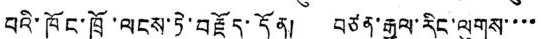བའི་ཁོང་ཁྲོ་ལངས་ཏེ་བརྗོད་དོན། བཙན་རྒྱལ་རིང་ལུགས་་་་
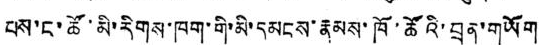པས་ང་ཚོ་མི་རིགས་ཁག་གི་མི་དམངས་རྣམས་ཁོ་ཚོའི་བྲན་གཡོག
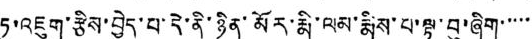ཏུ་འཇུག་རྩིས་བྱེད་པ་དེ་ནི་ཉིན་མོར་རྨི་ལམ་རྨིས་པ་ལྟ་བུ་ཞིག་་་་་
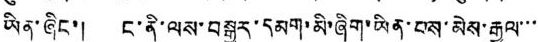ཡིན་ཞིང་། ང་ནི་ལས་བསྒྱུར་དམག་མི་ཞིག་ཡིན་པས་མེས་རྒྱལ་་་
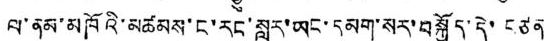ལ་ནམ་མཁོའི་མཚམས་ང་རང་སླར་ཡང་དམག་སར་བསྐྱོད་དེ་བཙན
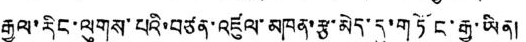རྒྱལ་རིང་ལུགས་པའི་བཙན་འཛུལ་མཁན་རྩ་མེད་དུ་གཏོང་རྒྱུ་ཡིན།
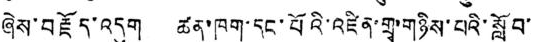ཞེས་བརྗོད་འདུག ཚན་ཁག་དང་པོའི་འཛིན་གྲྭ་གཉིས་པའི་སློབ་
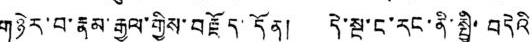གཉེར་བ་རྣམ་རྒྱལ་གྱིས་བརྗོད་དོན། དེ་སྔ་ང་རང་ནི་སྤྱི་བདེའི
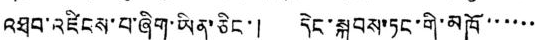འཐབ་འཛིངས་པ་ཞིག་ཡིན་ཞིང་། དེང་སྐབས་ཏང་གི་མཁོ་་་་་་
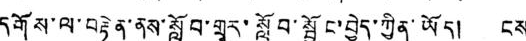དགོས་ལ་བརྟེན་ནས་སློབ་གྲྭར་སློབ་སྦྱོང་བྱེད་ཀྱིན་ཡོད། ངས
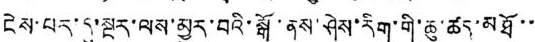ངེས་པར་དུ་སྔར་ལས་མྱུར་བའི་སྒོ་ནས་ཤེས་རིག་གི་ཆུ་ཚད་མཐོ་་
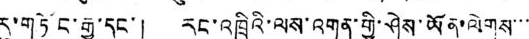རུ་གཏོང་རྒྱུ་དང་། རང་འཁྲིའི་ལས་འགན་གྱི་ཤེས་ཡོན་ལེགས་་་
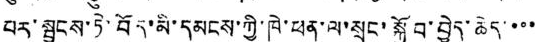པར་སྦྱངས་ཏེ་བོད་མི་དམངས་ཀྱི་ཁེ་ཕན་ལ་སྲུང་སྐྱོབ་བྱེད་ཆེད་་་་
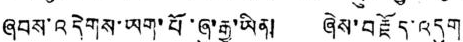ཞབས་འདེགས་ཡག་པོ་ཞུ་རྒྱུ་ཡིན། ཞེས་བརྗོད་འདུག
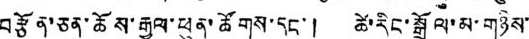བརྩོན་ཅན་ཆོས་རྒྱལ་ཕུན་ཚོགས་དང་། ཚེ་རིང་སྒྲོལ་མ་གཉིས་
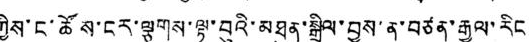ཀྱིས་ང་ཚོས་ངར་ལྕགས་ལྟ་བུའི་མཐུན་སྒྲིལ་བྱས་ན་བཙན་རྒྱལ་རིང
